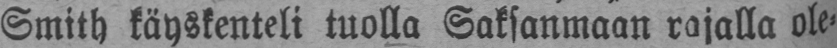Smith käyskenteli tuolla Saksanmaan rajalla ole-
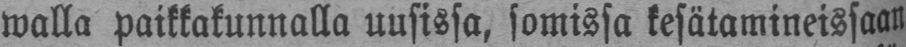walla paikkakunnalla uusissa, somissa kesätamineissaan
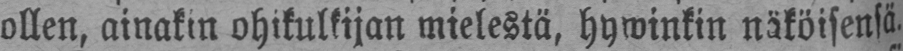ollen, ainakin ohikulkijan mielestä, hywinkin näköisensä
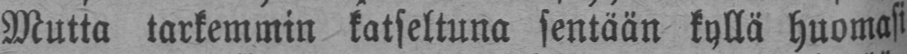Mutta tarkemmin katseltuna sentään kyllä huomasi
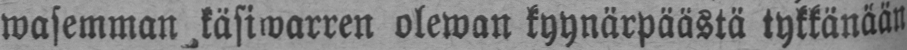wasemman käsiwarren olewan kyynärpäästä tykkänään
